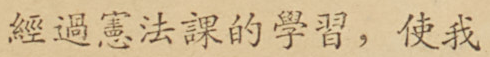經過憲法課的學習，使我
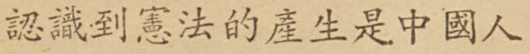認識到憲法的產生是中國人
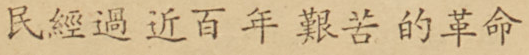民經過近百年艱苦的革命
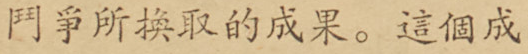鬥爭所換取的成果。這個成
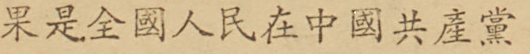果是全國人民在中國共產黨
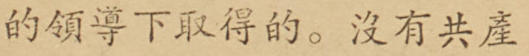的領導下取得的。沒有共產
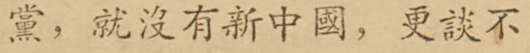黨，就沒有新中國，更談不
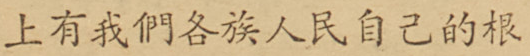上有我們各族人民自己的根
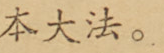本大法。
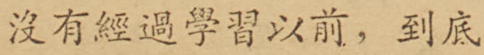沒有經過學習以前，到底
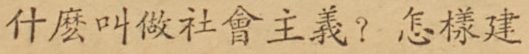什麼叫做社會主義？怎樣建
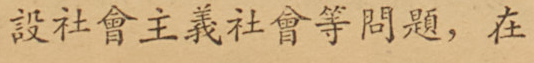設社會主義社會等問題，在
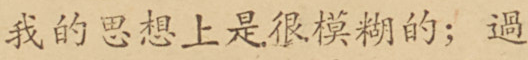我的思想上是很模糊的；過
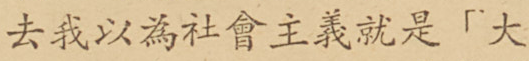去我以為社會主義就是「大
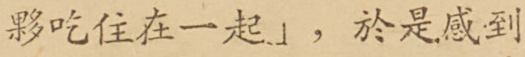夥吃住在一起」，於是感到
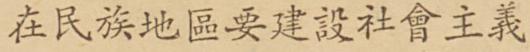在民族地區要建設社會主義
